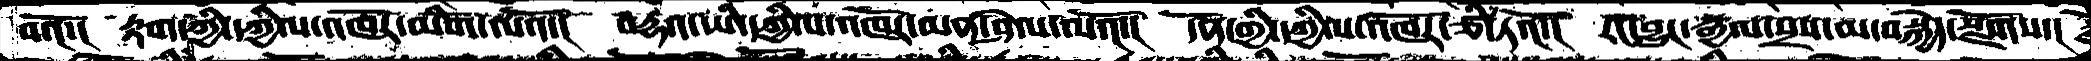བའོ་།   རྟག་ཀྱི་དཀྱིལ་འཁོར་མིག་ལའོ་།   བདྷའ་ཡི་དཀྱིལ་འཁོར་མན་ཤེལ་ལའོ་།  དོན་གྱི་དཀྱིལ་འཁོར་ཙི་ཏའོ་།  རང་བྱུང་རྒྱལ་སྲས་མ་བསྐྱེད་སྫོགས་།
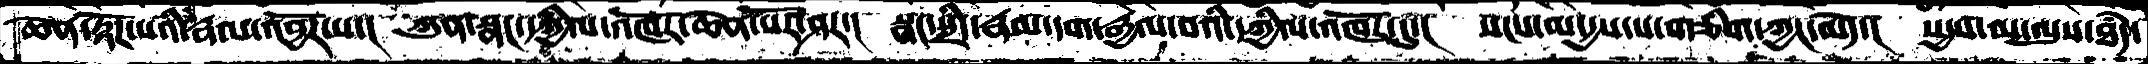ཆེན་རྟོཌ་པའི་རྣལ་འབྱོར་པ་།   ཀུན་སྣང་དཀྱིལ་འཁོར་ཆེན་པོར་ཤར་།  སྣང་སྲིད་རྣམ་དག་རྒྱལ་བའི་དཀྱིལ་འཁོར་དུ་།  སངས་མ་དྱས་པ་གཅིག་ཀྱང་མེད་།  སདྱས་མ་ལུས་ཐཾད་
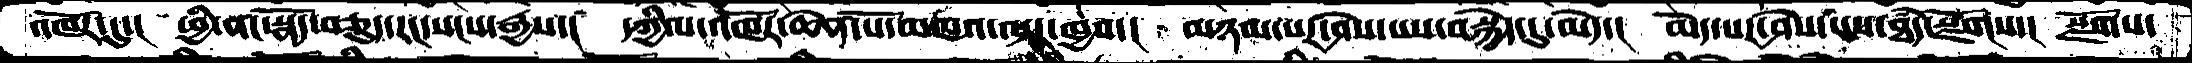འཁོར་དུ་།  ཕྱི་ནང་སྣོད་བཅུད་རང་སངས་རྒྱས་།  དཀྱིལ་འཁོར་ཆེན་པོ་མཁའ་ལྟར་ཁྱབ་།  མཉམ་པར་ཤེས་པས་བསྐྱེད་དུ་མེད་།  མེད་པར་ཤེས་པས་ཐཾད་སྫོགས་།  སྫོགས་
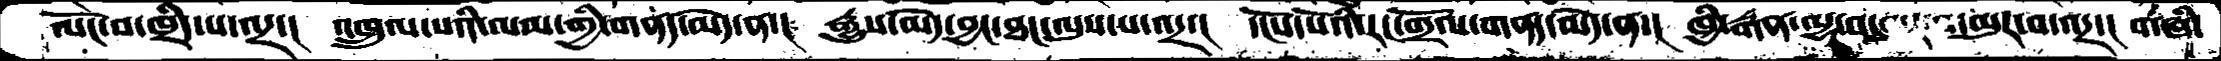ལོང་བ་ཁྲིད་པ་འདྲ་།  འཁྲུལ་པའི་ལམ་གྱི་གནད་མེད་ན་།  རྒྱུས་མེད་བྱང་ཐང་ལུས་པ་འདྲ་།  དངོས་པོའི་རང་གྲོལ་གནད་མེད་ན་།  ཁྱི་རྒན་ལྷ་བ་མུར་བ་འདྲ་།  གཞི་
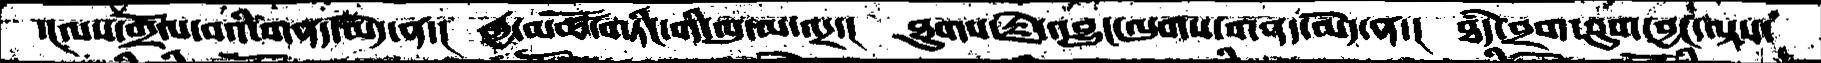་།ལས་གྲོལ་བའི་གནད་མེད་ན་།  རྒྱ་མཚོ་གཏིང་གི་ལུ་མ་འདྲ་།  ཐུགས་རྗེ་འབྱུང་ལུགས་གནད་མེད་ན་།  ཐཾད་བྲག་ཕུག་བྱང་ལྟས་
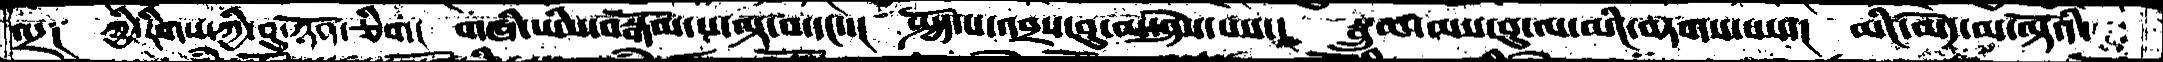འདྲ༑  ཀྱི་རིགས་ཀྱི་བུ་ཉོན་ཅིག།  གཞི་ཡིས་བསྒོམ་པ་ལྟ་བ་དང་་།  སྤྱོད་པ་འབྲས་བུ་མ་ཤེས་པས་།  སྦྲུམ་མས་དབུ་ལ་མིང་བཏགས་པས་།  མིང་མེད་ལ་ལྟོའི་
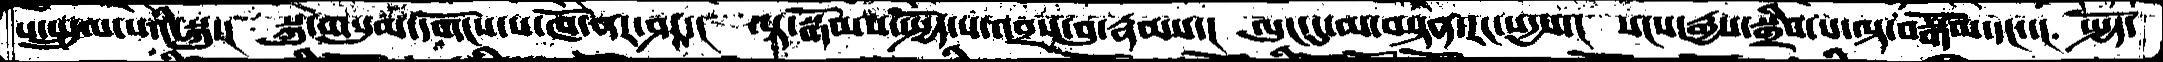པ་སྤྲུལ་པའི་སྐུ་།  སྐུ་གསུམ་དགོངས་པ་ཁོ་ནར་ཤར་།   ལྟ་སྒོམས་སྤྱོད་པ་འབྲས་བུ་རྣམས་།  ལུང་དུ་མ་བསྟན་རང་སདྱས་།  སངས་རྒྱས་སྒྲིབ་པ་ལྟ་བསྒོམ་དང་་།  སྤྱོད་
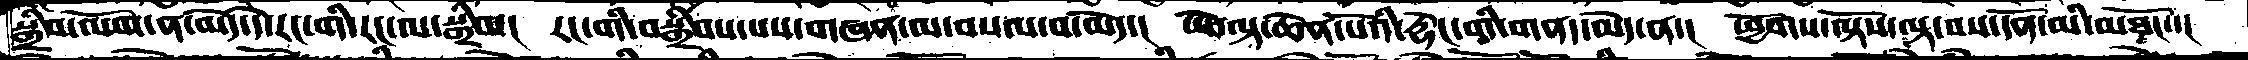སྒྲིབ་ལོག་ན་མེད་དེ་རང་གི་རང་ལ་སྒྲིབ།  རང་གི་བསྒྲིབས་པས་གཞན་ལ་བསལ་བ་མེད་།  ཡེ་ལྟ་ཆེན་པོའི་རྡེང་གི་གནད་མེད་ན་།  ཕྱོགས་ལྟོས་ལྟ་བས་དོན་མི་མཐོང་་།
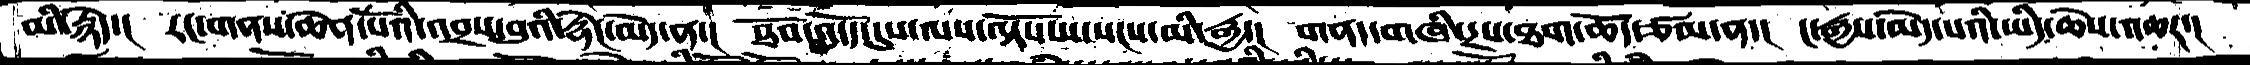མི་རྙེད་།  རང་གནས་ཆེན་པོའི་འབྲས་བུའི་རྡེང་མེད་ན་།  ཐོབ་འདོད་དུས་ལས་ལྟོས་པ་སངས་མི་རྒྱས་།  གནད་གཞི་དྲས་ཐག་ཆོད་ཙམ་ན་།  ང་རྒྱལ་མེད་པའི་ཡིད་ཆེས་འཆར་།
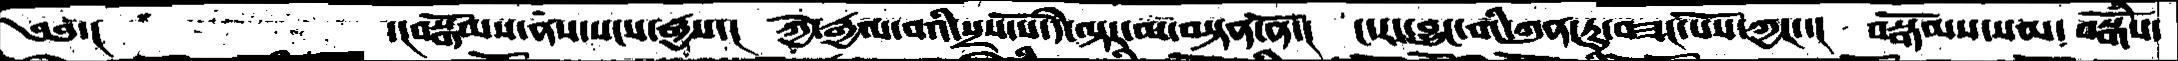༄༅་།        དངབསྒོམས་ནས་སངས་རྒྱས་།  ཀྱེ་རྒྱལ་བའི་སྲས་པོ་དེ་ལྟར་མ་བསྟན་ནོ་།  ང་རང་བྱུང་གི་ཀུན་ཏུ་བཟང་པོས་ཀྱང་་།  བསྒོམས་སམ་བསྒོཾས་
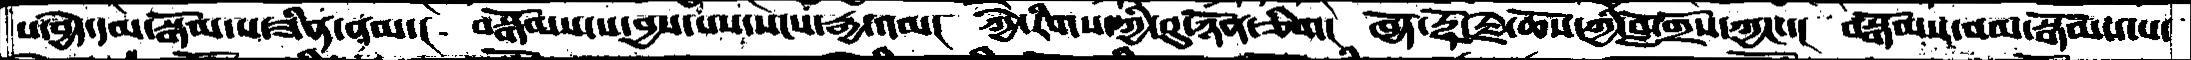པ་བྱེད་དམ་སྒོམ་ས་ཟིན་ནམ་།  བསྒོམས་པ་བྱས་པས་སངས་རྒྱ་འམ།  ཀྱཻ་རིགས་ཀྱི་བུ་ཉོན་ཅིག།  ཁྱོད་རྡོ་རྗེ་ཆོས་ཀྱི་བློ་གྲོས་ཀྱང་་།  བསྒོམས་བམ་སྒོམས་པ་
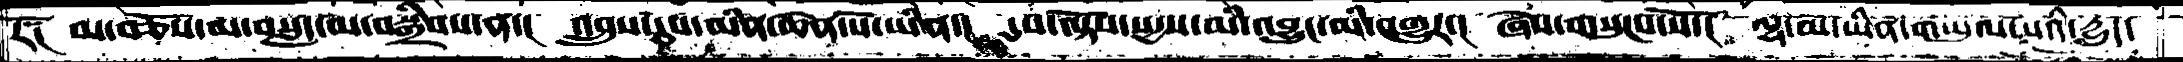རོ༑  མ་བཅོས་མ་བསླད་མ་བསྒྲིབས་ན་།  འབྲུས་དུས་མིན་ཆེན་པོ་ཡིན་།  དུས་ལྟོས་སདྱས་མི་འབྱུང་མི་འགྱུར་།  ཞེས་གསུངས་སོ་།  ལྷ་མ་ཡིན་གཡུལ་པའི་རྒྱུད་
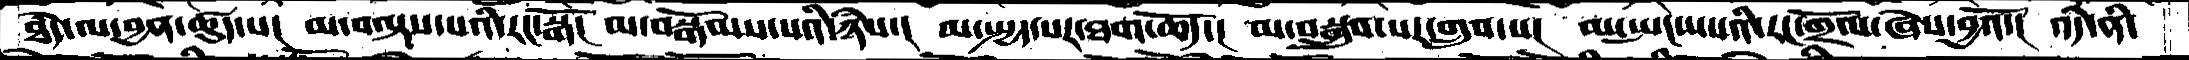ཐཾད་ལ་བྱན་ཚུད་པ།  མ་བལྟས་པའི་རང་སྒོ།  མ་བསྒོམས་པའི་ཉེས་།  མ་སྤྱད་པར་ཐག་ཆོད་།  མ་བསྒྲུབ་པར་གྲུབ་པ།  མ་སྤང་པའི་རང་གྲོལ་ཞེས་བྱའོ་།  འདི་ནི་
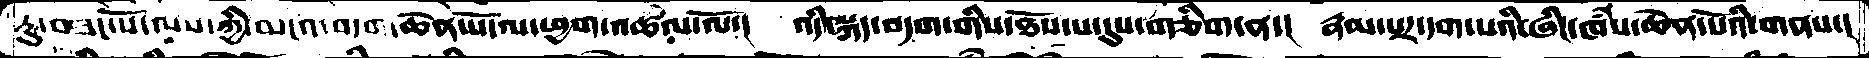ཏུ་བཟང་པོ་ལས་ཀྱི་མངའ་བདག་ཆེན་པོ་ལ་ཕྱག་འཚལ་ལོ་།   འདི་སྐད་བདག་གིས་ཐོས་པ་དུས་གཅིག་ན་།  རྣམ་པར་དག་པའི་ཞིང་ཁཾས་ཆེན་པོའི་གནས་།
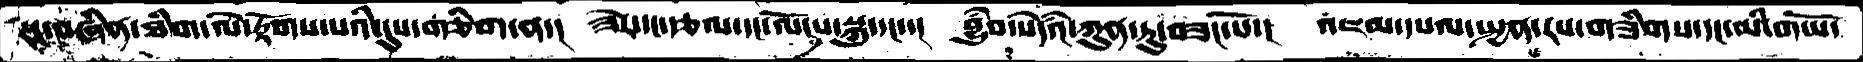སུ་བཞིན་ཐིག་ལེ་རྟོགས་པའི་དུས་གཅིག་ན་།  ཟེར་དང་རྩལ་དང་ལོངས་སྐུ་དང་་།  བྱུཾབ་སེཾདའི་ཀུན་ཏུ་བཟང་པོ་།  འཇམ་དཔལ་སྤྱན་རས་གཟིགས་དང་མི་གཡོ་
